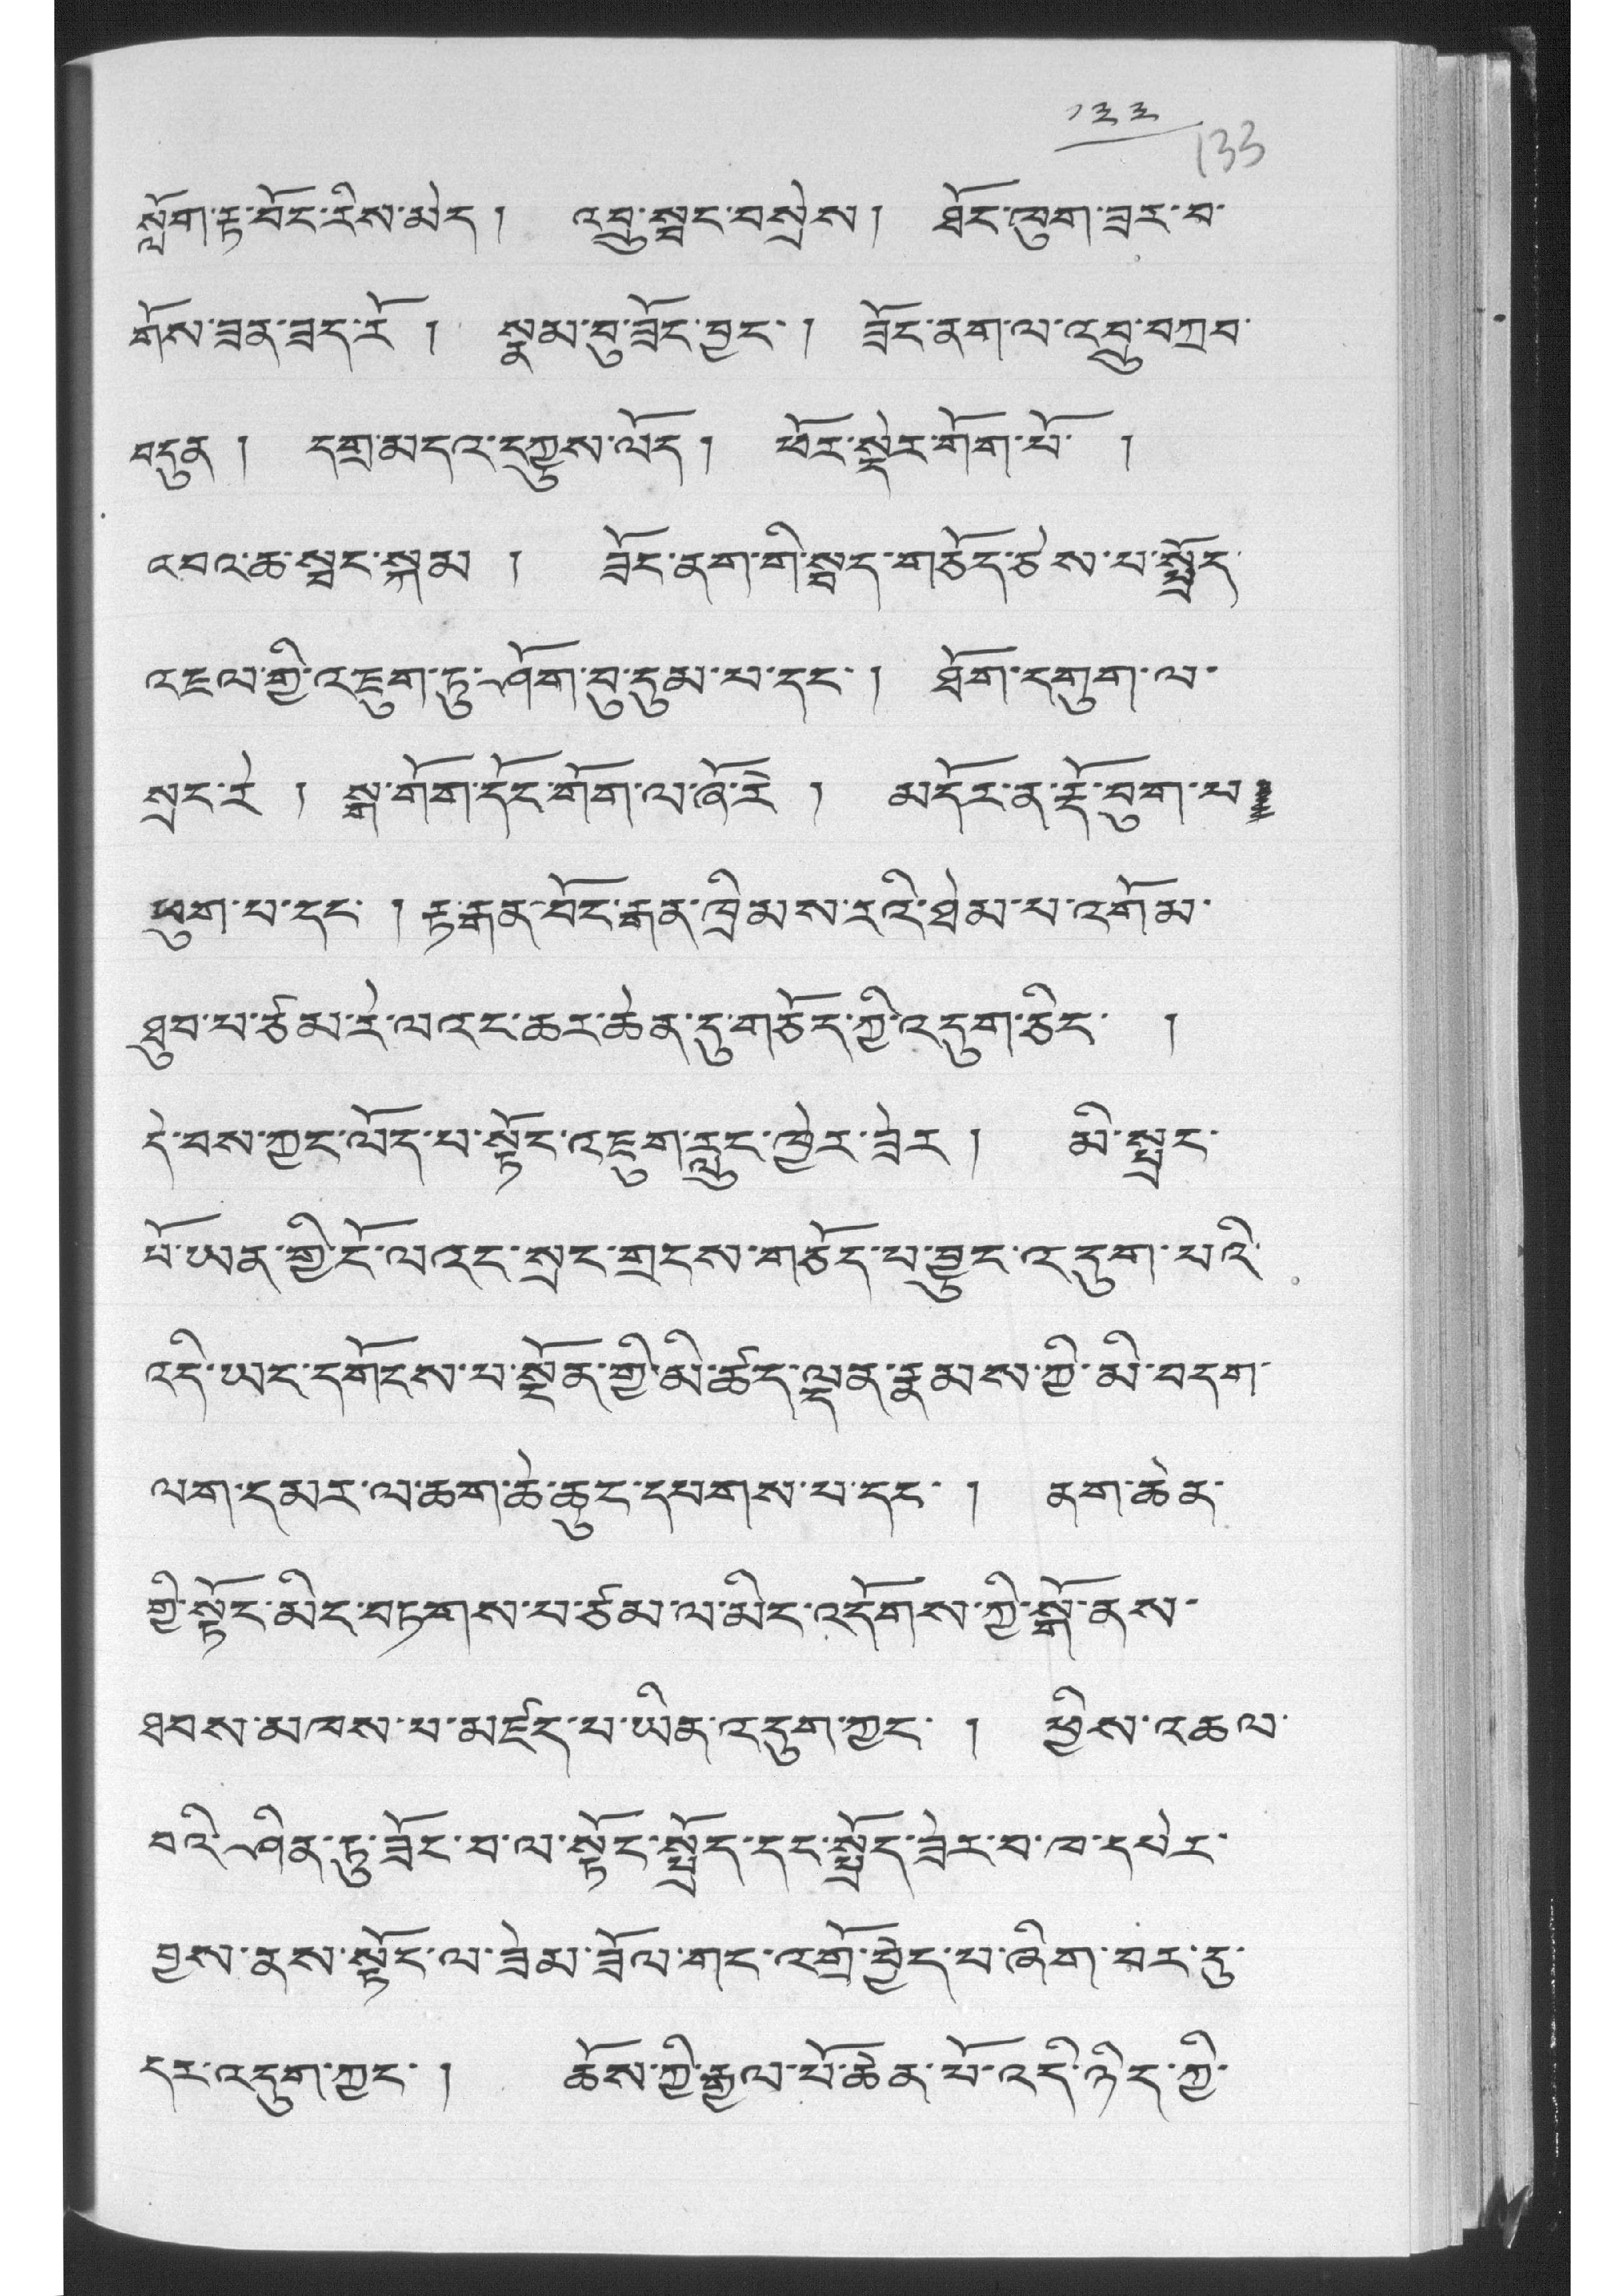༡༣༣
སློག་རྟ་བོང་རིས་མེད། འབྲུ་སྦང་བསྲེས། ཐོང་ཁུག་ཟེར་བ་
གོས་ཟན་ཟད་རོ ། སྣམ་བུ་ཟོང་བྱང་ ། ཟོང་ནག་ལ་འབྲུ་བཀྲབ་
བདུན ། དགྲ་མདའ་དཀྱུས་ལོད། ཕོར་སྡེར་གོག་པོ་ །
འབའ་ཆ་སྦང་སྐམ ། ཟོང་ནག་གི་སྦད་གཅོད་ཅེས་པ་སྤྲོད་
འཇལ་གྱི་འཇུག་ཏུ་ཤོག་བུ་དུམ་པ་དང་། ཐོག་དགུག་ལ་
སྲང་རེ ། སྒ་གོག་དོང་གོག་ལ་ཞོ་རེ ། མདོར་ན་རྡོ་བུག་པ་།
ཕུག་པ་དང་ ། རྟ་རྒན་བོང་རྒན་ཁྲིམས་རའི་ཐེམ་པ་འགོམ་
ཐུབ་པ་ཙམ་རེ་ལའང་ཆར་ཆེན་དུ་གཅོད་ཀྱི་འདུག་ཅིང་ །
དེ་བས་ཀྱང་ལོད་པ་སྟོང་འཇུག་རླུང་ཁྱེར་ཟེར། མི་སྤྲང་
པོ་ཡིན་གྱི་ངོ་ལའང་སྲང་གྲངས་གཅོད་པ་བྱུང་འདུག་པའི་
འདི་ཡང་དགོངས་པ་སྔོན་གྱི་མི་ཚད་ལྡན་རྣམས་ཀྱི་མི་བདག་
ལག་དམར་ལ་ཆག་ཆེ་ཆུང་དཔགས་པ་དང་ ། ནག་ཆེན་
གྱི་སྟོང་མིང་བཏགས་པ་ཙམ་ལ་མིང་འདོགས་ཀྱི་སྒོ་ནས་
ཐབས་མཁས་པ་མཛད་པ་ཡིན་འདུག་ཀྱང་ ། ཕྱིས་འཆལ་
བའི་ཤིན་ཏུ་ཟོང་བ་ལ་སྟོང་སྤྲོད་དང་སྤྲོད་ཟེར་བ་ཁ་དཔེར་
བྱས་ནས་སྟོང་ལ་ཟེམ་ཟོལ་གང་འགྲོ་བྱེད་པ་ཞིག་བར་དུ་
དར་འདུག་ཀྱང་ ། ཆོས་ཀྱི་རྒྱལ་པོ་ཆེན་པོ་འདི་ཉིད་ཀྱི་
